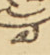༧
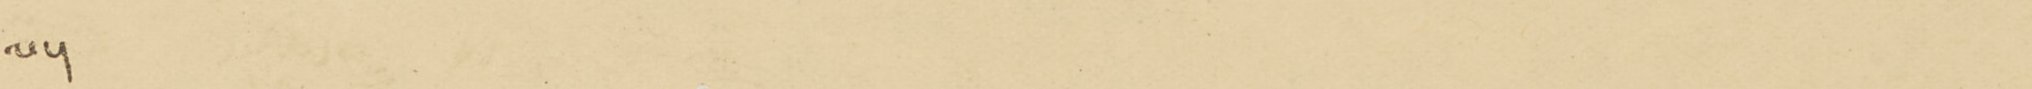ལ་།
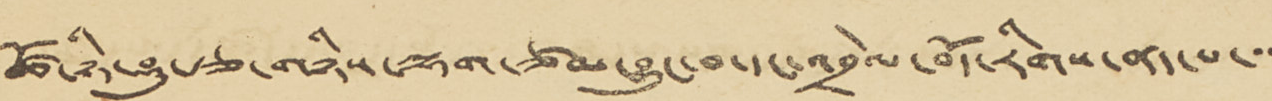ཚོ་ཉི་ཤུ་རྩ་གཉིས་ལྷག་ཙམ་བྱུང་བ་དང་འབྲེལ་བོད་རིགས་ནད་པ་་་
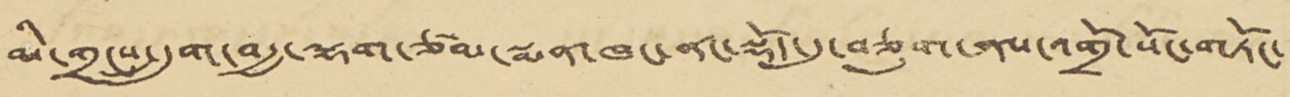མི་གྲངས་དྲུག་བརྒྱ་ལྷག་ཙམ་སྨན་ཁང་ནང་སྡོད་དུ་བཅུག་ནས་འགྲོ་སོང་གཏོང་
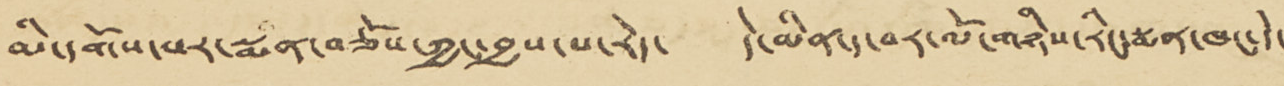མི་དགོས་པར་སྨན་བཅོས་ཀྱང་བྱས་པ་རེད་ དེ་མིན་ད་བར་ལོ་གཉིས་རིང་སྨན་ཁང་དེ་
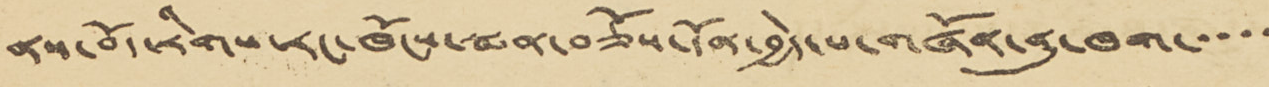ནས་བོད་རིགས་རང་ཁོངས་སྨན་བཅོས་དོན་བྱེད་པ་གཞོན་ནུ་ཁག་་་་་
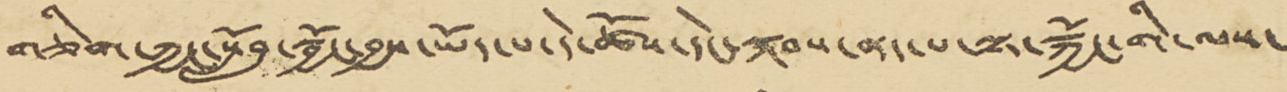གཅིག་ཀྱང་སློབ་སྦྱོང་བྱས་ཡོད་པ་དེ་ཚོས་དེང་སྐབས་ནད་པ་ལྟ་སྐྱོང་གི་ལས་
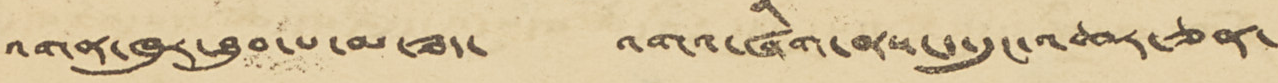འགན་ཁུར་ཐུབ་པ་མ་ཟད་ འགའ་ཞིག་ནས་ད་དུང་འཆར་ཅན་
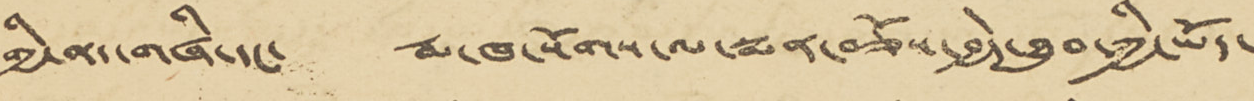གྱི་ནད་གཞི་དང་ རྨ་ཁ་སོགས་ལ་སྨན་བཅོས་བྱེད་ཐུབ་ཀྱི་ཡོད་
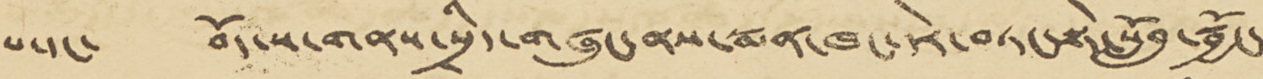པ་དང་ བོད་ས་གནས་སྲིད་གཞུང་ནས་སྨན་ཁང་དེར་བཏང་སྟེ་སློབ་སྦྱོང་
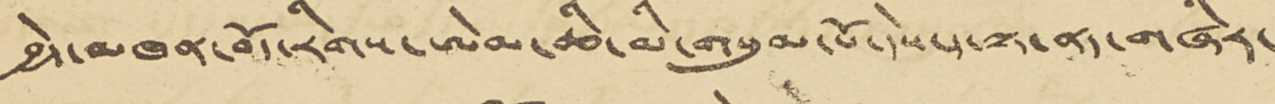བྱེད་མཁན་བོད་རིགས་ཨེམ་ཆི་མི་གསུམ་པོ་དེས་ད་ལྟ་ནད་གཞིར་
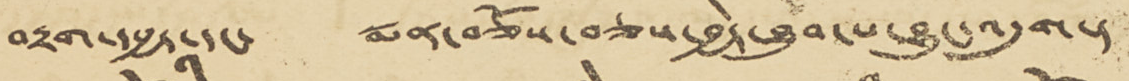བརྟག་དཔྱད་དང་ སྨན་བཅོས་བཅས་བྱེད་ཐུབ་པ་བྱུང་འདུག་།
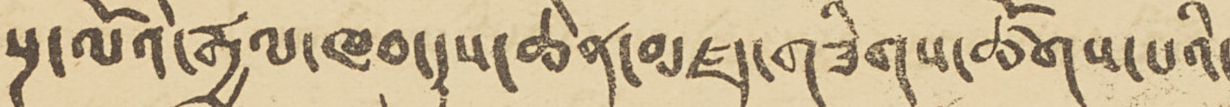སྔ་ལོའི་རྒྱལ་ཁབ་དུས་ཆེན་མཛད་གཟིགས་ཚོགས་པའི་
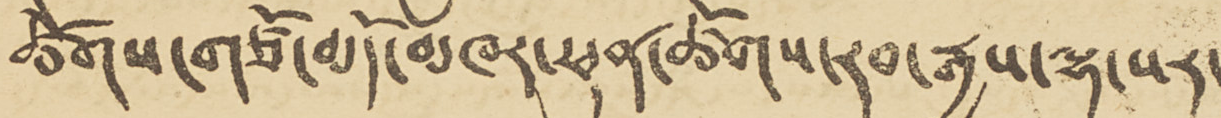ཚོགས་གཙོ་མདོ་མཁར་ཕུན་ཚོགས་རན་རྒྱས་ལྷ་སར་
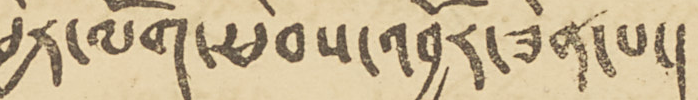ཕྱིར་ལོག་ཕེབས་འབྱོར་ཟིན་པ་།
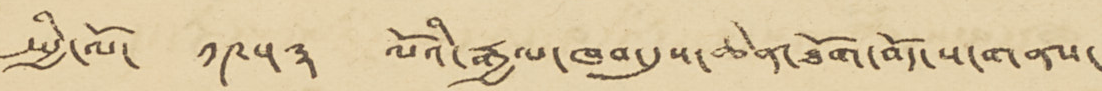སྤྱི་ལོ་ ༡༩༥༣ ལོའི་རྒྱལ་ཁབ་དུས་ཆེན་ཐོག་བོད་ས་གནས་
